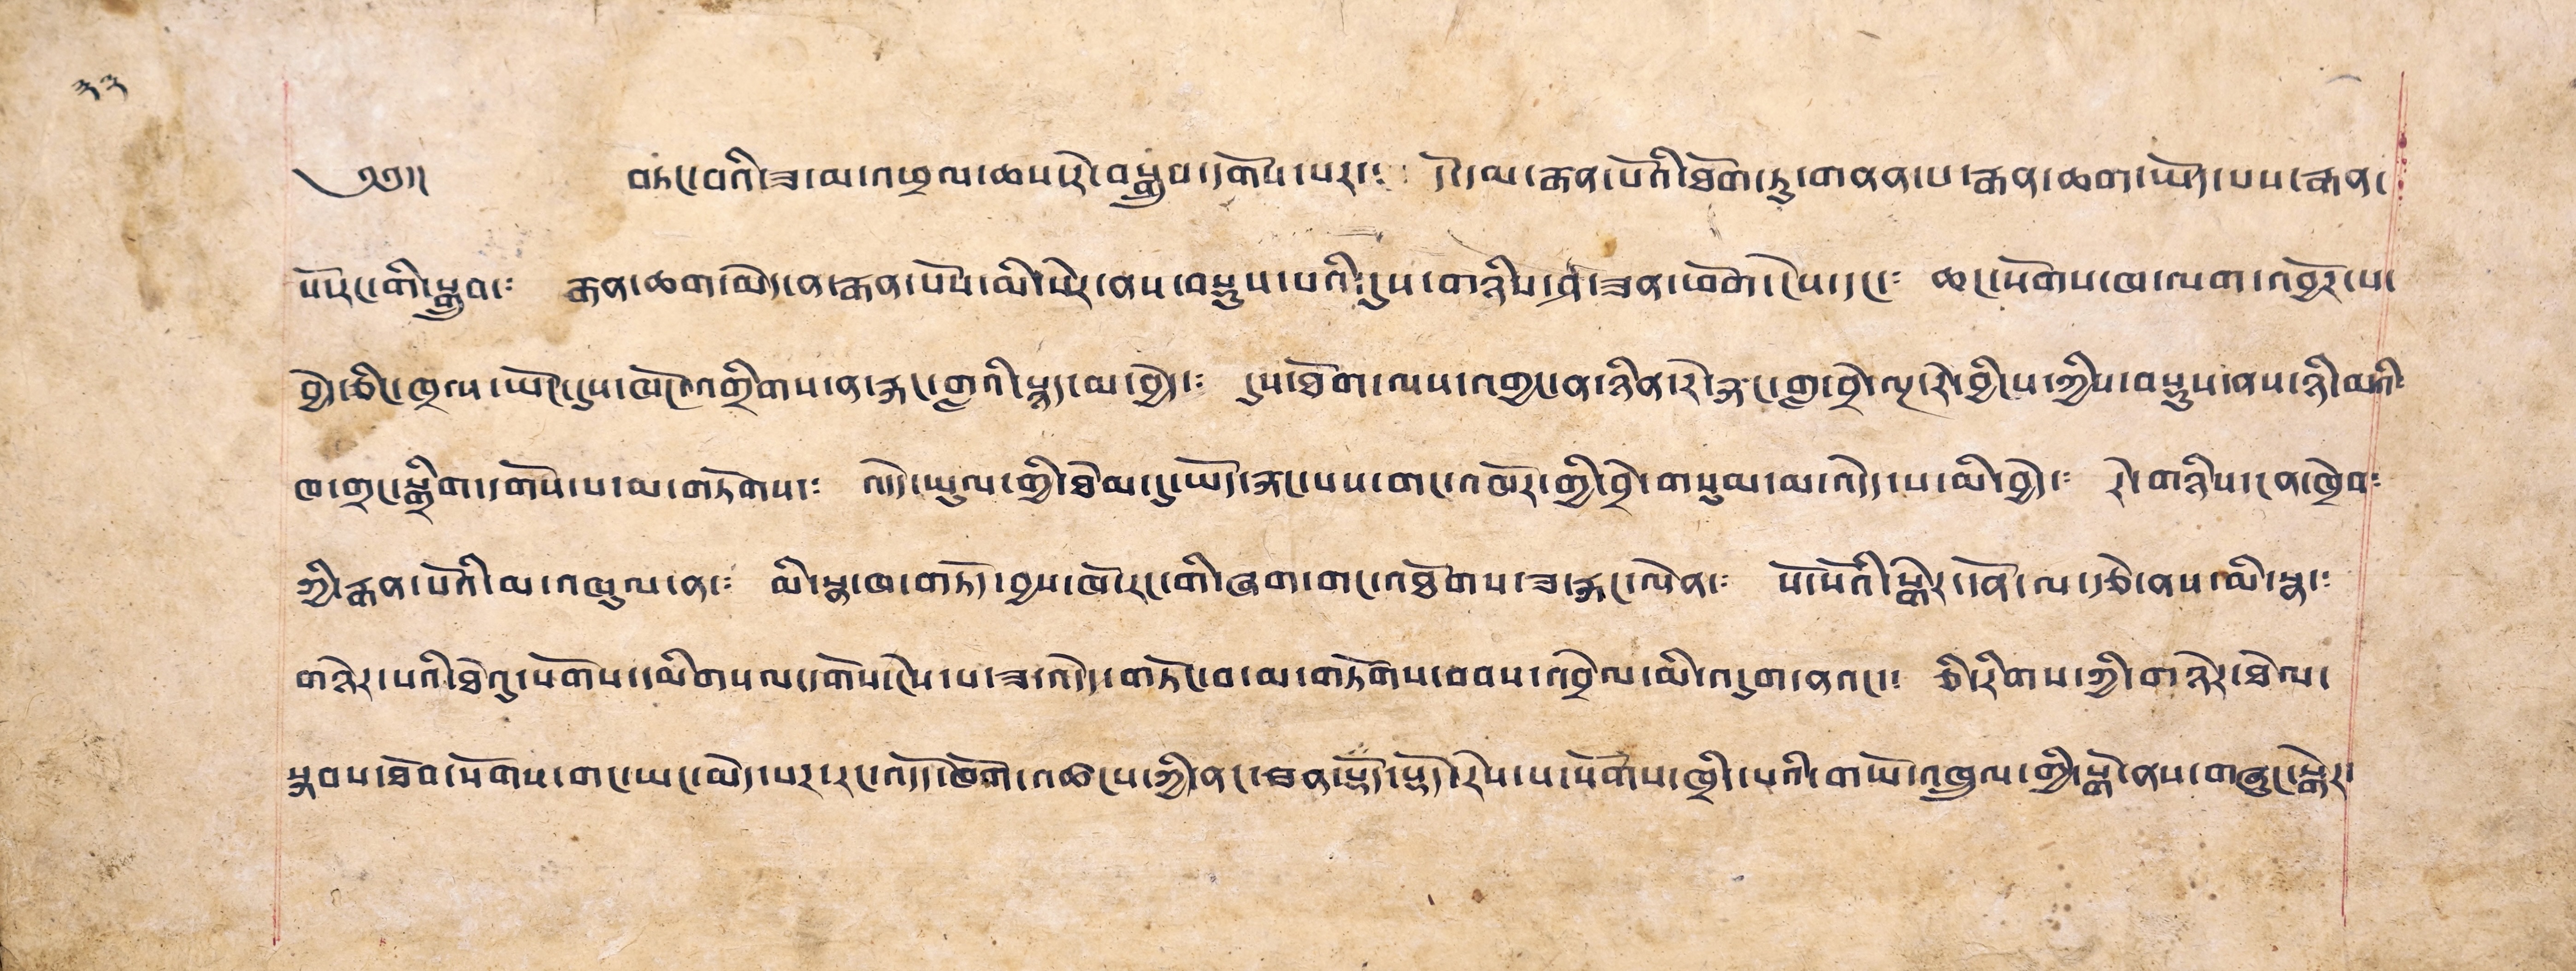༄༅།། བཏང་བའི་ཟ་མ་འཕྲལ་ཆས་རེ་བསྒུབ་དགོས་པར་དང་༴ དོ་དམ་རྒན་པོའི་ཐོག་ཏུ་གཤན་པ་རྒན་ཆག་ཡོད་པས་རྒན་
པོ་རང་གི་སྒྲུབ་༴ རྒན་ཆག་མེད་ན་རྒན་པོས་མི་སེར་ནས་བསྡུས་པའི་དུས་གཉིས་ཤ་ཟན་ཕོག་ངེས་དང་༴ ཆང་སོགས་ཁ་ལག་འབྱོར་པ་
བྱེད་ཅིང་ཁྲལ་ཡོང་དུས་ཁོང་འགྲིགས་ན་རྐང་གླའི་སྙད་མ་བྱེད་༴ དུས་ཐོག་ལས་འགྱང་ན་ཉིན་རེ་རྐང་གླ་བྲེ་ལྔ་རེ་བྱིངས་ཀྱིས་བསྡུས་བས་ཉི་མའི༴
ཁ་གྲང་སྒྲིག་དགོས་པ་མ་གཏོགས་༴ འདེད་ཡུལ་གྱི་ཐེམ་དུ་ཡོད་རྐང་པས་གང་འཁོར་གྱི་བྲེ་གསུམ་མ་འདེད་པ་མི་བྱེད་༴ རེ་གཉིས་ངན་ཁྲེབ༴
ཀྱི་རྣན་པོའི་མ་འཁུལ་ན་༴ མི་སྣ་ཁ་གཏོད་བྱས་ཁོ་རང་གི་ཞག་གང་འཐོགས་ཟ་རྐང་ལེན་༴ སོ་སོའི་སྒེར་དོན་ལ་རྩེ་ནས་མི་སྣ་༴
གཉེར་པའི་ཐེའུ་སོགས་དམིགས་ལ་དགོས་ངེས་པ་ཟ་འདེད་གཏོང་བ་མ་གཏོགས་བབས་འབྲེལ་མི་འདུག་ནའང་༴ ཅི་རིགས་ཀྱི་གཉེར་ཐེལ་
སྐབས་ཐོབ་སོགས་གང་ཡང་མེད་པར་རང་འདོད་ཁོག་འཚངས་ཀྱི་ནང་ཟན་སྡོད་སྡོད་རེས་པ་སོགས་ཁྲིད་པའི་གཡོ་འཁྲུལ་གྱི་སྒོ་ནས་གཞུང་སྒེར་
